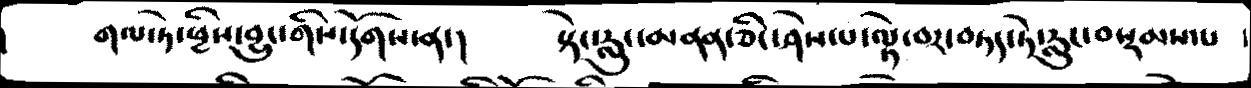།  གལ་ཏེ་ཕྱིས་བྱུང་གིས་དོགས་ན་།   སྟེང་རླུང་མནན་ཅིང་ཤེས་པ་ལྟེ་བར་བཏད་ཏེ་རླུང་བསྡམས་པ
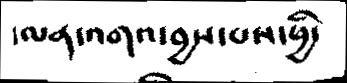།ལན་འགའ་བྱས་པས་ཕྱི་
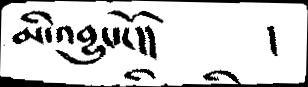མི་འབྱུང་ངོ།།    །
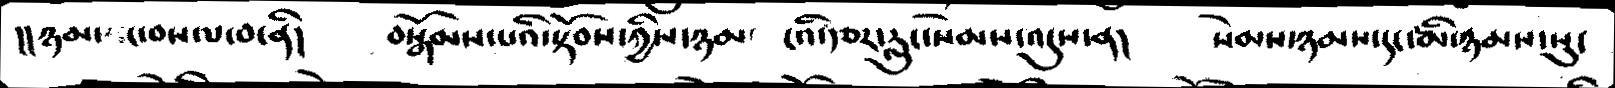།།ཉམ་ང་བསལ་བ་ནི།   བསྒོམས་པའི་སྟོབས་ཀྱིས་ཉམ་ ངའི་རྩར་རླུང་སེམས་འདུས་ན།   སེམས་ཉམས་དང་མི་ཉམས་སུ་
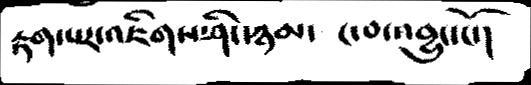རྟག་པར་འཇིགས་ཤིང་ཉམ་  ང་བ་འབྱུང་ངོ་།
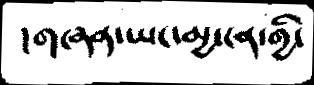།གཞན་ཡང་མྱ་ངན་གྱི་
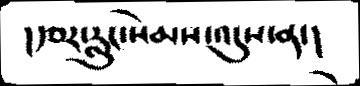།རྩར་རླུང་སེམས་འདུས་ན་།
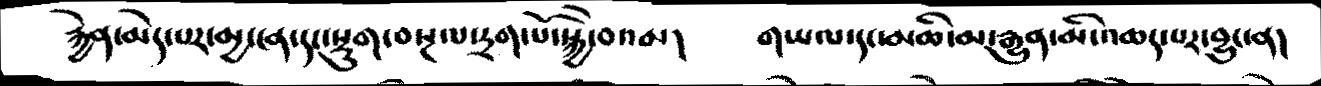རྐྱེན་མེད་པར་མྱ་ངན་དང་སྡུག་བསྔལ་དྲག་པོ་སྐྱེ་བའམ།  གཡལ་དང་མཆི་མ་རྒྱུན་མི་འཆད་པར་བྱུང་ན།
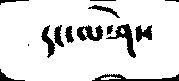དང་ལ་ཤེས
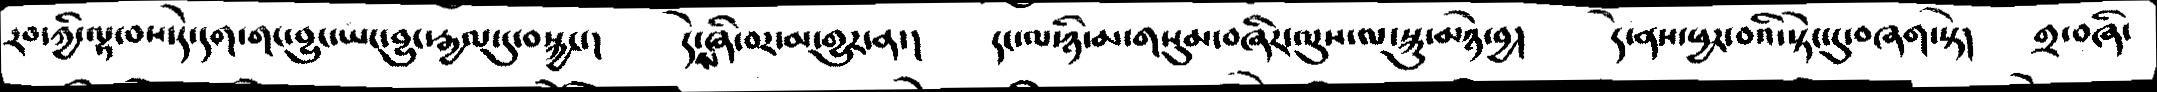རབ་ཀྱི་ལྟ་བས་དེ་དག་གང་བྱུང་ཡང་བྱུང་རྒྱལ་དུ་བསྐྱང་།  དེས་ཞི་བར་མ་གྱུར་ན་།  དང་ལ་ཉི་མ་གསུམ་བཞིར་ལུས་ལ་སྐུ་མཉེ་བྱ།  དེ་ནས་ཕྱར་བའི་སྟེང་དུ་བཞག་སྟེ།  གྲ་བཞི་
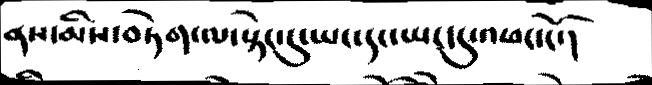ནས་མིས་བཏེག་ལ་སྟེང་དུ་ཡང་དང་ཡང་དུ་འཕང་ངོ་།
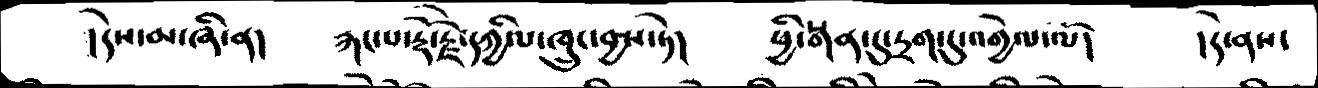།དེས་མ་ཞི་ན།  རྐང་པ་རྡོ་རྗེ་དཀྱིལ་ཁྲུང་བྱས་ཏེ།  ཕྱི་སྒན་དུ་དྲག་དུ་འགྱེལ་ལོ།  །དེ་ནས་
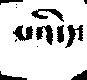པའི་ད་
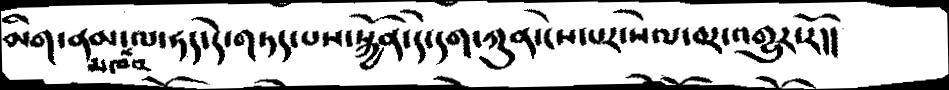མིག་ནམ་མཁའ་ལ་ཧད་དེ་གཏད་པས་སྐྱོན་དེ་དག་ཀུན་ངེས་པར་སེལ་བར་འགྱུར་རོ།།
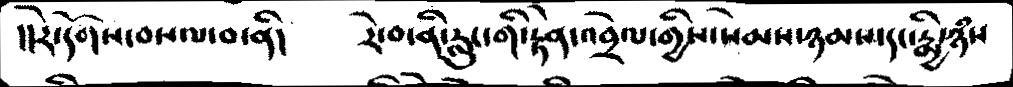།།རེ་དོགས་བསལ་བ་ནི།   རེ་བ་ནི་རླུང་གི་རྟེན་འབྲེལ་གྱིས་སེམས་ཉམས་དང་རྨྱི་ཉཾས
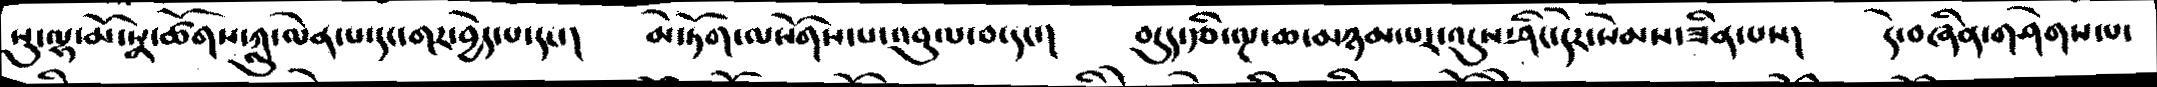སུ་ལྷ་མོ་སྣ་ཚོགས་ཀླུ་ལེན་པ་དང་གར་བྱེད་པ་དང་།   མེ་ཏོག་ལསོགས་པ་འབུལ་བ་དང་།   བདུད་རྩི་ལྔ་ཆ་མཉམ་པར་འདུས་ཤིང་དེར་སེམས་ཟིན་པས།   དེ་བཞིན་གཤེགས་པ་
